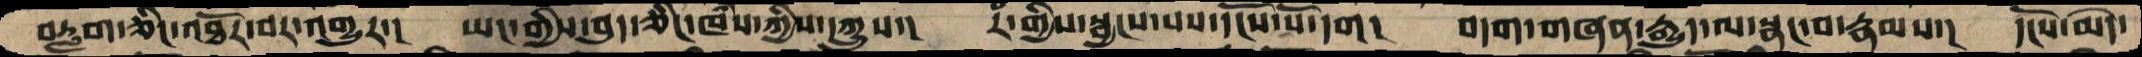བརླག་ཅིང་འཐོར་བར་འགྱུར་།  ཡང་གྱིས་བུད་ཅིང་ཁཾས་ཀྱིས་དཀྱུས་།  རཾ་གྱིས་སྦྱངས་པས་དངོས་པོ་དག།  བདག་གཞན་རྒྱུད་ལ་སྣང་བ་རྣམས་།  དངོས་མེད་
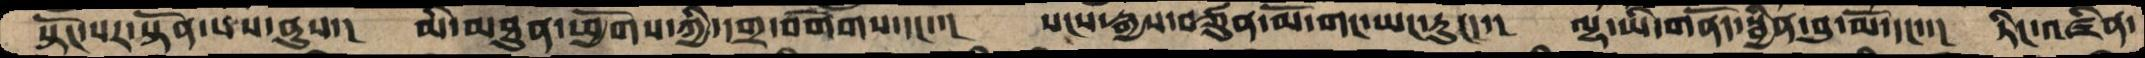སྟོང་པར་སྟོན་པས་ནུས་།  མི་མཐུན་ཕྱོགས་ཀྱི་དགྲ་བགེགས་དང་་།  སངས་རྒྱས་བཙུན་མོ་གང་ཡང་རུང་་།  ལྷ་ཡི་གནོད་སྦྱིན་བུ་མོ་དང་་།  ཏིང་འཛིན་
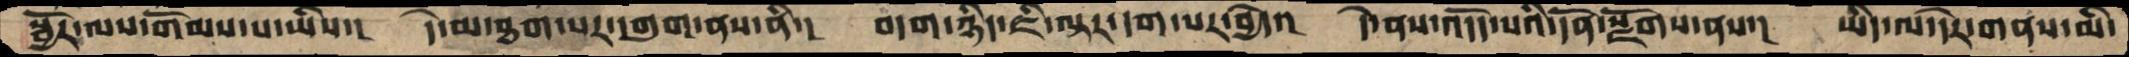སྦྱོར་ལས་གོམས་པ་ཡིས་།   དེ་མ་ཐག་པར་དགུག་ནས་ནི་།  བདག་ཉིད་ཇི་ལྟར་དག་པར་བྱེད་།  དེ་ནས་འདོད་པའི་དོན་སྫོགས་ནས་།  ཡིད་ལ་དེར་གནས་མི་
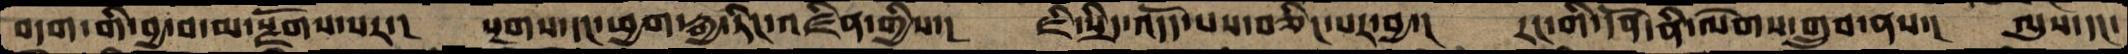བདག་གི་བྱ་བ་མ་སྫོགས་པར་།   སྔགས་དང་ཕྱག་རྒྱ་ཏིང་འཛིན་གྱིས་།  ཇི་སྲིད་འདོད་པས་བཅིང་པར་བྱ་།  རང་གི་དོན་ནི་ལེགས་གྲུབ་ནས་།  ལུས་དང་
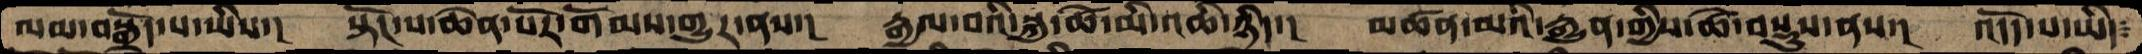ལམ་བསྒྲོད་པ་ཡིས་།  སྟོང་པ་ཆེན་པོར་གོམས་གྱུར་ནས་།  རྒྱལ་བའི་སྐུ་ཚེ་མི་འཆི་ཉིད་།  མཚན་མའི་རྒྱུན་གྱིས་ཚེ་བསྡུས་ནས་།  འདོད་པ་ཡིད་
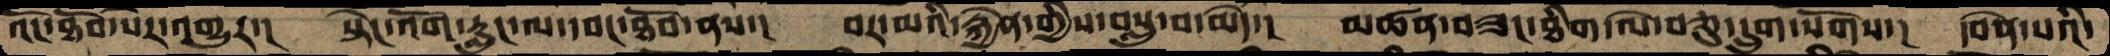འོང་ཐོབ་པར་འགྱུར་།  སྟེང་འོག་རླུང་ལ་དབང་ཐོབ་ནས་།  བར་མའི་རྐྱེན་གྱིས་བསླུ་བ་མེད་།  མཚན་བཟང་ཐིག་ལེ་བཅུ་དྲུག་སོགས་།  དབེན་པའི་
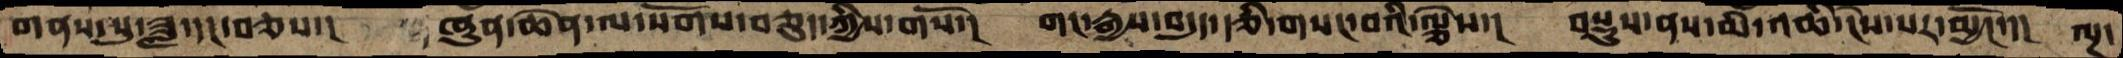གནས་སུ་ཟླ་དང་བཅས་།  ཞུན་ཆེན་ལ་སོགས་བཅུད་ཀྱིས་གསོ་།  གང་རྒྱས་བདུད་རྩི་གསང་བའི་ལྕེས་།  བསྡུས་ནས་མི་འཆི་ངེས་པར་མྱོང་།།  ལྔ་
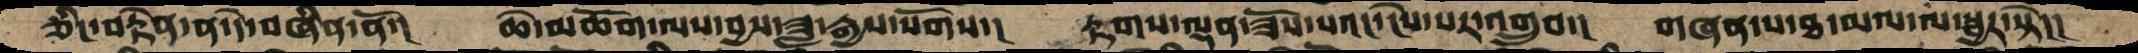ཅིང་བརྟེན་ན་དེ་བཞིན་ནོ་།  ཆེ་མཆོག་ལས་བྱས་ཟླ་རྒྱས་སོགས་།  རྟགས་ལྡན་ཟོས་པའང་ངེས་པར་འགྲུབ་།  གཞན་པ་ཐ་མལ་ལ་སྦྱར་སྟེ་།
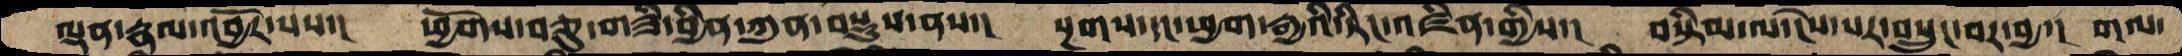ལྡན་རྣལ་འབྱོར་པས་།  ཕྱོགས་བཅུ་གཟི་བྱིན་ཀུན་བསྡུས་ནས་།  སྔགས་དང་ཕྱག་རྒྱའི་ཏིང་འཛིན་གྱིས་།  བསྟིམ་ལ་ངེས་པར་བསྲུང་བར་བྱ་།  གལ་
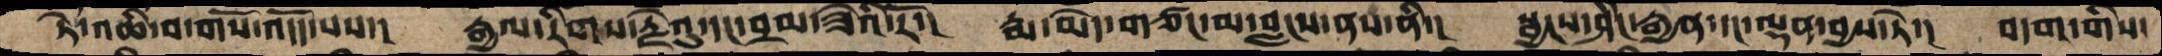ཏེ་འཆི་བ་གསོ་འདོད་པས་།  རྒྱལ་རིགས་རྗེའུ་དང་བྲམ་ཟེའི་རོ་།  རྨ་མེད་གཙང་མ་བླངས་ནས་ནི་།  སྦྱངས་ཤིང་རྒྱན་དང་ལྡན་བྱས་ཏེ་།  བདག་གིས་
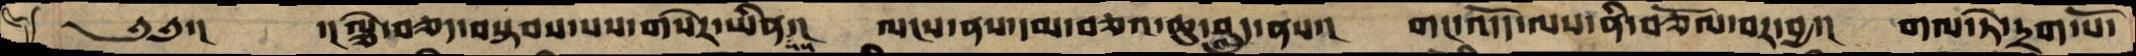༄༅་།   ་།ལྕེ་བཅད་བསྟབས་པས་གསེར་ཡིན་པས་།  ལངས་ནས་དམ་བཅའ་ཆུ་བླུད་ནས་།  གང་འདོད་ལས་ནི་བཅོལ་བར་བྱ་།  གལ་ཏེ་དྲག་པོ་
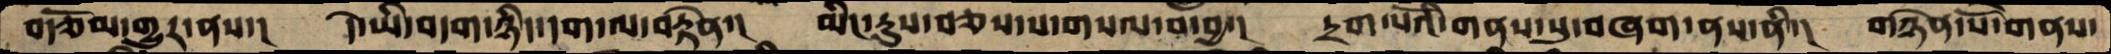བརྩོམ་གྱུར་ནས་།  དེ་ཡི་བདག་ཉིད་དག་ལ་བརྟེན་།  མིང་རུས་བཅས་པ་གསལ་བ་བྱ་།  དྲག་པོའི་གནས་སུ་བཞག་ནས་ནི་།  གཉེན་པོ་གནས་
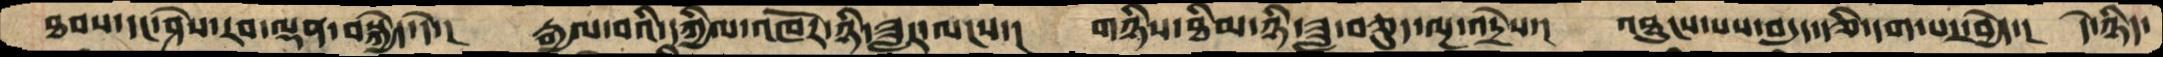ཐབས་དང་ཤེས་རབ་ལྡན་བསྐྱེད་དེ་།  རྒྱལ་བའི་དཀྱིལ་འཁོར་ཉི་ཟླར་ལངས་།  གཉིས་ཐིམ་ཉི་ཟླ་བཅུད་ལྔ་འདྲེས་།  འཐུངས་པས་བདུད་རྩི་དག་པར་བྱེད་།  དེ་ཉིད་
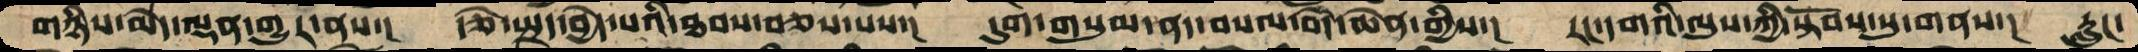གཉིས་མེད་ལྡན་གྱུར་ནས་།  རྩེ་སྤྲད་བྱེད་པའི་ཐབས་བཅས་པས་།  དུག་གསུམ་ནད་བསལ་བདེ་ཆེན་གྱིས་།  རང་དགའི་ལུས་ཀྱི་སྟོབས་སུ་གནས་།  རླུང་
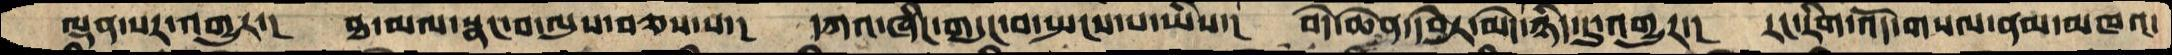ལྡནཔར་འགྱུར་།  ཐ་ལམ་སྣང་བ་ལུས་བཅས་པ་།  དཀའ་ཞིང་གདུང་བ་སྤངས་པ་ཡིས་།  བདེ་ཆེན་དབྱེར་མེད་ཉིད་དུ་འགྱུར་།  རང་རིག་འོད་གསལ་ནམ་མཁའ་
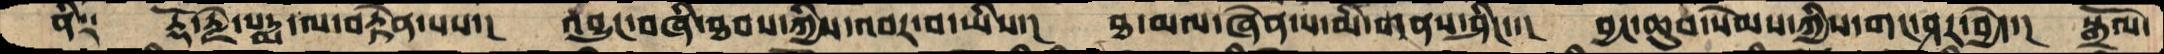ནི༑  རྡོ་རྗེ་པདྨ་ལ་བརྟེན་པས་།  འབྱུང་བཞི་ཐབས་ཀྱིས་འབར་བ་ཡིས་།  ཐ་མལ་ཞེན་པ་མི་གནས་ཤིང་་།  བྱང་ཆུབ་སེམས་ཀྱིས་གང་ཤར་བྱེད་།  སྒྲོལ་
